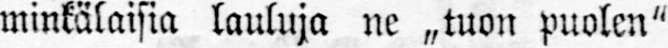minkälaisia lauluja ne „tuon puolen"
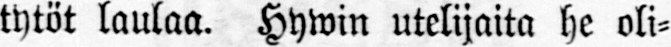tytöt laulaa. Hywin utelijaita he oli-
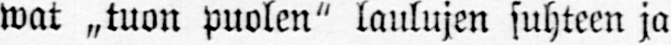wat „tuon puolen" laulujen suhteen ja
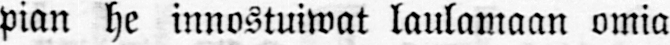pian he innostuiwat laulamaan omia
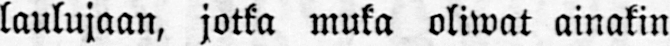laulujaan, jotka muka oliwat ainakin
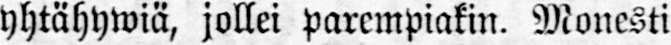yhtähywiä, jollei parempiakin. Monesti
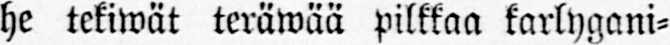he tekiwät teräwää pilkkaa karlygani-
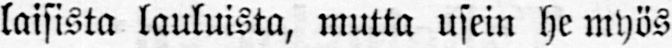laisista lauluista, mutta usein he myös
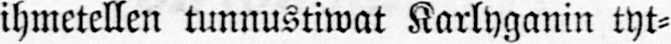ihmetellen tunnustiwat Karlyganin tyt-
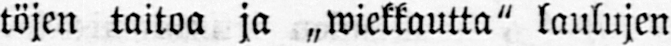töjen taitoa ja „wiekkautta" laulujen
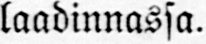laadinnassa.
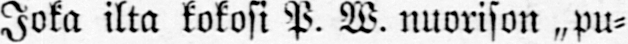Joka ilta kokosi P. W. nuorison „pu-
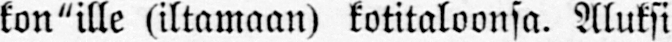kon"ille (iltamaan) kotitaloonsa. Aluksi
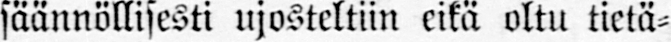säännölliseti ujosteltiin eikä oltu tietä-
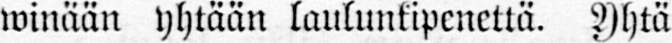winään yhtään laulunkipenettä. Yhtä
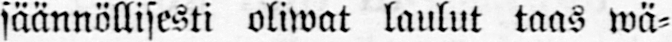säännöllisesti oliwat laulut taas wä-
